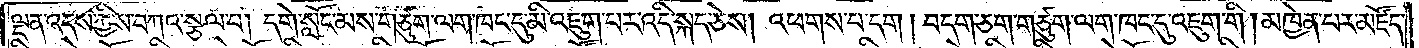ལྡན་འདས་ཀྱིས་བཀའ་སྩལ་པ། དགེ་སློང་མས་གཙུག་ལག་ཁང་དུ་མི་འཇུག་པར་འདི་སྐད་ཅེས། འཕགས་པ་དག །བདག་ཅག་གཙུག་ལག་ཁང་དུ་འཇུག་གི། མཁྱེན་པར་མཛོད་
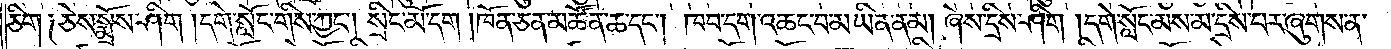ཅིག ༑ཅེས་སྨྲོས་ཤིག །དགེ་སློང་གིས་ཀྱང༌། སྲིང་མོ་དག །ཁོན་ཅན་མཚོན་ཆ་དང༌། ཁབ་དག་འཆང་བ་མ་ཡིན་ནམ། ཞེས་དྲིས་ཤིག །དགེ་སློང་མས་མ་དྲིས་པར་ཞུགས་ན་
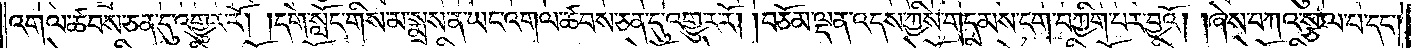འགལ་ཚབས་ཅན་དུ་འགྱུར་རོ། །དགེ་སློང་གིས་མ་སྨྲས་ན་ཡང་འགལ་ཚབས་ཅན་དུ་འགྱུར་རོ། །བཅོམ་ལྡན་འདས་ཀྱིས་གདམས་ངག་བཀྱིག་པར་བྱའོ། །ཞེས་བཀའ་སྩལ་པ་དང༌།
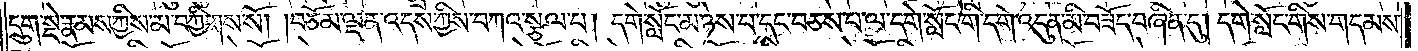དྲུག་སྡེ་རྣམས་ཀྱིས་མ་བཀྱིགས་སོ། །བཅོམ་ལྡན་འདས་ཀྱིས་བཀའ་སྩལ་པ། དགེ་སློང་མ་ཉེས་པ་དང་བཅས་པ་ལ་དགེ་སློང་གི་དགེ་འདུན་མི་བཟོད་བཞིན་དུ། དགེ་སློང་གིས་གདམས་
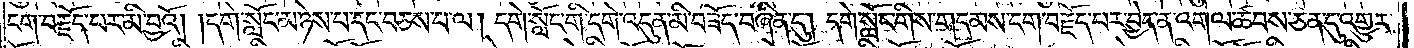ངག་བརྗོད་པར་མི་བྱའོ། །དགེ་སློང་མ་ཉེས་པ་དང་བཅས་པ་ལ། དགེ་སློང་གི་དགེ་འདུན་མི་བཟོད་བཞིན་དུ། དགེ་སློང་གིས་གདམས་ངག་བརྗོད་པར་བྱེད་ན་འགལ་ཚབས་ཅན་དུ་འགྱུར་
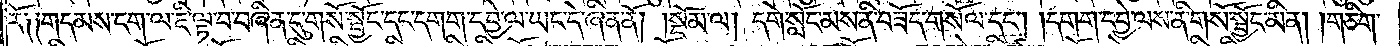རོ༑ ༑གདམས་ངག་ལ་ཇི་ལྟ་བ་བཞིན་དུ་གསོ་སྦྱོང་དང་དགག་དབྱེ་ལ་ཡང་དེ་བཞིན་ནོ།    །སྡོམ་ལ། དགེ་སློང་མས་ནི་བཟོད་གསོལ་དང༌། །དགག་དབྱེ་ལས་ནི་གསོ་སྦྱོང་མིན། །གཅིག་
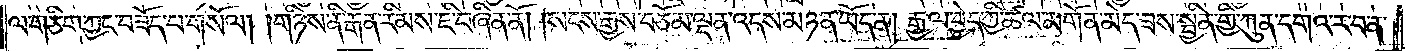ལ་གཅིག་ཀྱང་བཟོད་པ་གསོལ། །གཉིས་ནི་རྒན་རིམས་ཇི་བཞིན་ནོ། །སངས་རྒྱས་བཅོམ་ལྡན་འདས་མཉན་ཡོད་ན། རྒྱལ་བྱེད་ཀྱི་ཚལ་མགོན་མེད་ཟས་སྦྱིན་གྱི་ཀུན་དགའ་ར་བ་ན་
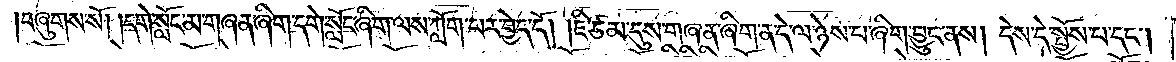བཞུགས་སོ། །དགེ་སློང་མ་གཞན་ཞིག་དགེ་སློང་ཞིག་ལས་ཀློག་པར་བྱེད་དོ། །ཇི་ཙམ་དུས་གཞན་ཞིག་ན་དེ་ལ་ཉེས་པ་ཞིག་བྱུང་ནས། དེས་དེ་སྤྱོས་པ་དང༌།
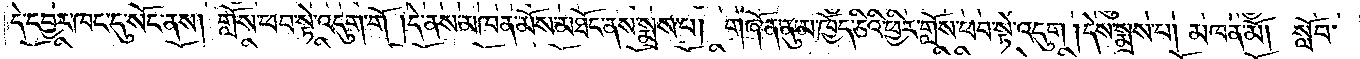དེ་དབྱར་ཁང་དུ་སོང་ནས། གློས་ཕབ་སྟེ་འདུག་གོ །དེ་ནས་མཁན་མོས་མཐོང་ནས་སྨྲས་པ། གཞོན་ནུ་མ་ཁྱོད་ཅིའི་ཕྱིར་གློས་ཕབ་སྟེ་འདུག །དེས་སྨྲས་པ། མཁན་མོ། སློབ་
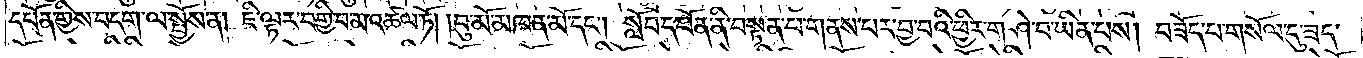དཔོན་གྱིས་བདག་ལ་སྤྱོས་ན། ཇི་ལྟར་བགྱི་བ་མ་འཚལ་ཏོ། །བུ་མོ་མཁན་མོ་དང༌། སློབ་དཔོན་ནི་བསྟན་པ་གནས་པར་བྱ་བའི་ཕྱིར་གཤེ་བ་ཡིན་པས། བཟོད་པ་གསོལ་དུ་ཟད་
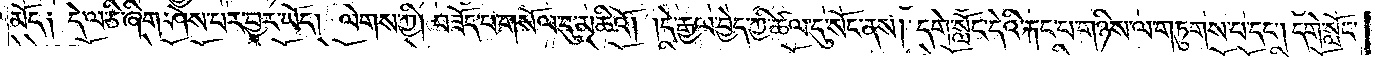མོད༑ དེ་ལ་ཅི་ཞིག་ཤེས་པར་བྱར་ཡོད། ལེགས་ཀྱི། བཟོད་པ་གསོལ་དུ་མཆིའོ། །དེ་རྒྱལ་བྱེད་ཀྱི་ཚལ་དུ་སོང་ནས། དགེ་སློང་དེའི་རྐང་པ་གཉིས་ལ་གཏུགས་པ་དང༌། དགེ་སློང་
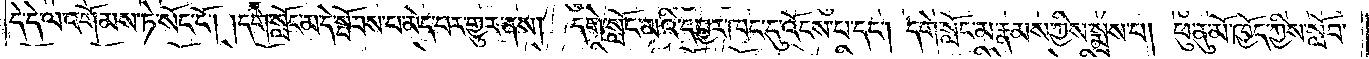དེ་དེ་ལ་འགོམས་ཏེ་སོང་ངོ༌། །དགེ་སློང་མ་དེ་སྤོབས་པ་མེད་པར་གྱུར་ནས། དགེ་སློང་མའི་དབྱར་ཁང་དུ་འོངས་པ་དང༌། དགེ་སློང་མ་རྣམས་ཀྱིས་སྨྲས་པ། ཕུ་ནུ་མོ་ཁྱོད་ཀྱིས་སློབ་
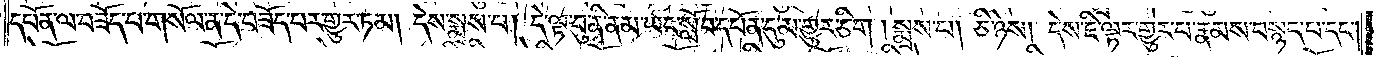དཔོན་ལ་བཟོད་པ་གསོལ་ན་དེ་བཟོད་པར་གྱུར་ཏམ། དེས་སྨྲས་པ། དེ་ལྟ་བུ་ནི་ནམ་ཡང་སློབ་དཔོན་དུ་མ་གྱུར་ཅིག །སྨྲས་པ། ཅི་ཉེས། དེས་ཇི་ལྟར་གྱུར་པ་རྣམས་བསྙད་པ་དང༌།
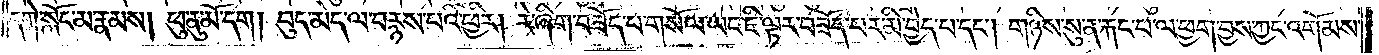དགེ་སློང་མ་རྣམས། ཕུ་ནུ་མོ་དག། བུད་མེད་ལ་བརྙས་པའི་ཕྱིར། རེ་ཞིག་བཟོད་པ་གསོལ་ཡང་ཇི་ལྟར་བཟོད་པར་མི་བྱེད་པ་དང༌། གཉིས་སུ་ན་རྐང་པ་ལ་ཕྱག་བྱས་ཀྱང་འགོམས་
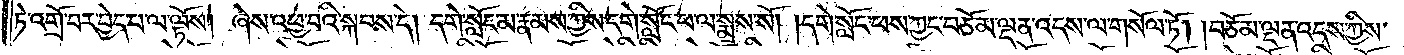ཏེ་འགྲོ་བར་བྱེད་པ་ལ་ལྟོས། ཞེས་འཕྱ་བའི་སྐབས་དེ། དགེ་སློང་མ་རྣམས་ཀྱིས་དགེ་སློང་ཕ་ལ་སྨྲས་སོ། །དགེ་སློང་ཕས་ཀྱང་བཅོམ་ལྡན་འདས་ལ་གསོལ་ཏོ། །བཅོམ་ལྡན་འདས་ཀྱིས་
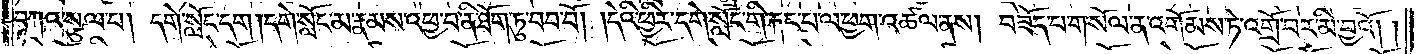བཀའ་སྩལ་པ། དགེ་སློང་དག །དགེ་སློང་མ་རྣམས་འཕྱ་བ་ནི་ཐོག་ཏུ་བབ་བོ། །དེའི་ཕྱིར་དགེ་སློང་གི་རྐང་པ་ལ་ཕྱག་འཚལ་ནས། བཟོད་པ་གསོལ་ན་འགོམས་ཏེ་འགྲོ་བར་མི་བྱའོ། །
